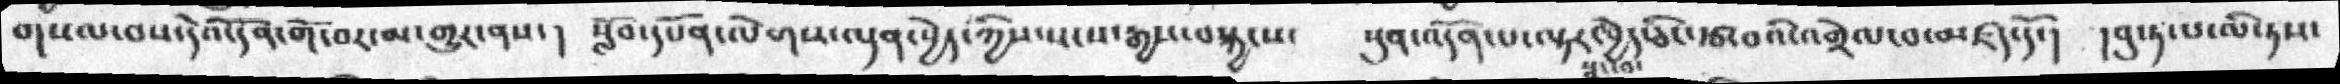གསལ་བས་དེའི་དོན་གོ་བར་མ་གྱུར་ནས་།  སློབ་དཔོན་ལེགས་ལྡན་བྱེད་ཀྱིས་སངས་རྒྱས་བསྐྱངས་  སུན་འདོན་པ་ལྟར་བྱེད་ཅིང་རྩ་བའི་འགྲེལ་བ་མཛད་དོ་།    །བུ་ཏ་པ་ལི་ཏས་
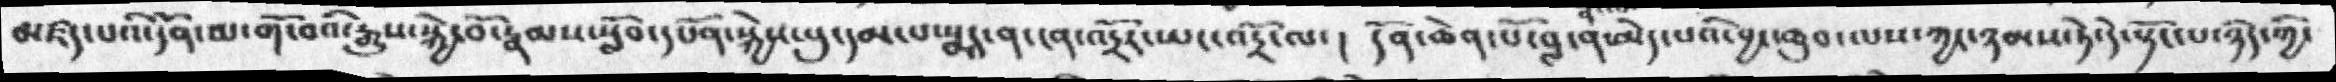མཛད་པའི་དོན་མ་གོ་བའི་རྒྱུས་སྐྱེ་བོ་རྣམས་སློབ་དཔོན་སྐྱེས་སུ་དམ་པ་སྨད་ན་ངན་འདྲོར་ཡང་འདྲོ་ལ་།  དོན་ཆེན་པོ་བླ་ན་མེད་པའི་བྱང་ཆུབ་ལས་ཀྱང་ཉམས་ཏེ་དེ་སྟོང་པ་ཉིད་ཀྱི་
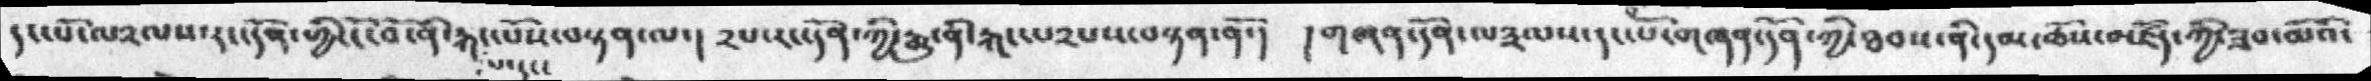དང་པོ་ལ༢ལས་རང་དོན་གྱི་ངོ་བོ་ནི་རྐང་པ་དང་པོས་བསྟན་ལ་།  ༢པ་རང་དོན་ཀྱི་རྒྱུ་ནི་རྐང་པ༢པས་བསྟན་ནོ་།  ། གཞན་དོན་ལ༣ལས་དང་པོ་གཞན་དོན་ཀྱི་ཐབས་ནི་དམ་ཆོས་མཛོད་ཀྱི་ཟབ་མོའི་
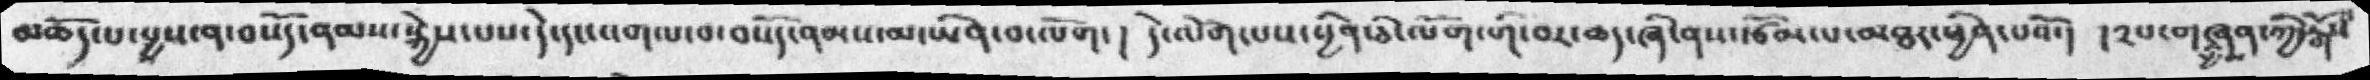མཆོས་པ་བྱས་ན་བསོད་ནམས་སྐྱེས་པས་དེ་དང་འགལ་བ་བསོད་ནམས་མ་ཡིན་པ་ལོག་།  དེ་ལོག་པས་ཕྱིན་ཅི་ལོག་གི་བར་ཆད་ཞི་ནས་རྩོམ་པ་མཐར་ཕྱིན་པའོ་།  །༢པ་གཞན་ཀྱི་རྒོས
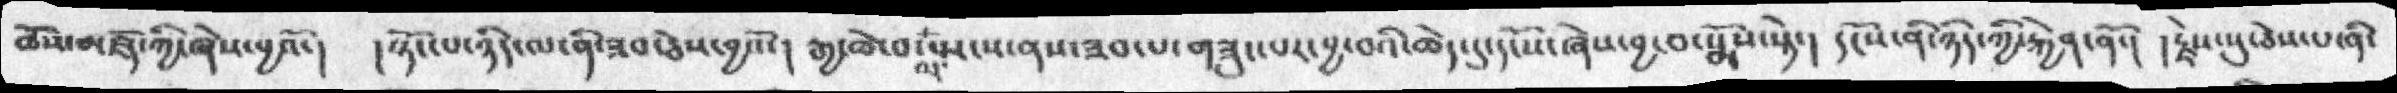ཆོས་མཛོད་ཀྱི་ཞེས་བྱའོ་།  ། སྟོང་པ་ཉིད་ལ་ནི་ཟབ་ཅེས་བྱའོ་།  རྒྱ་ཆེ་བ་ལ་སྤངས་ནས་ཟབ་པ་གཟུང་པར་བྱ་བའི་ཆེད་དུ་དངོས་ཞེས་བྱ་བ་སྨོས་སྟེ་།  དངོས་ནི་ཉིད་ཀྱི་རྐྱེན་ནོ་།  ། རྗེས་སུ་ཅེས་པ་ནི་
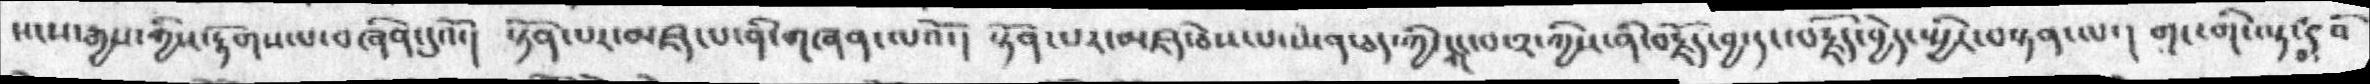སངས་རྒྱས་ཀྱིས་རྟོགས་པ་བཞིན་དུའོ་།   སྟོན་པར་མཛད་པ་ནི་གཞན་ལའོ་།  སྟོན་པར་མཛད་ཅེས་པ་ཡེན་ཅད་ཀྱི་གང་པ་༢་ཀྱིས་ནི་བརྗོད་བྱ་དང་བརྗོད་བྱེད་སྤྱིར་བསཏན་ལ་།  གང་གི་ལྟ་དབོ
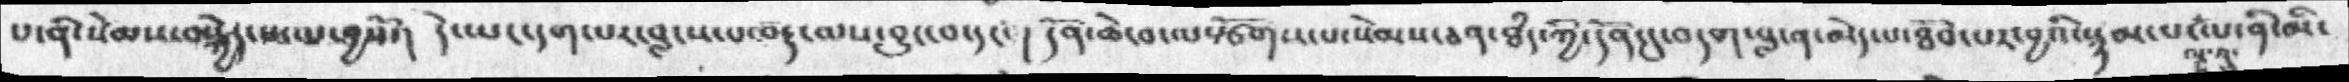པ་ནི་སེམས་བསྐྱེད་སྤ་པ་བྱསོ་།  དེ་ཡང་དག་པར་བླངས་པ་བརྡ་ལས་དབྱུང་བ་དང་།  དོན་ཆེ་བ་ལསྩོགས་པ་སེམས་ཅན་ཐཾད་ཀྱི་དོན་དུ་བདག་བླ་ན་མེད་པ་ཐོབ་པར་བྱའི་སྙམ་པ་ལ་ནི་མི་
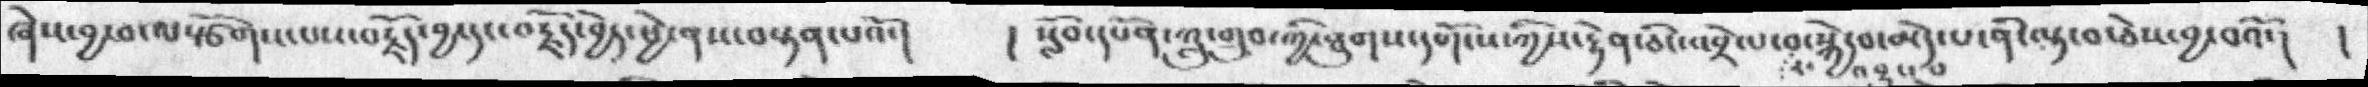ཞེས་བྱ་བ་ལསྩོགས་པས་བརྗོད་བྱ་དང་བརྗོད་བྱེད་ཕྱེ་ནས་བསྟན་པའོ་།  །  སློབ་དཔོན་ཀླུ་གྲུབ་ཀྱི་ཐུགས་དགོངས་ཀྱིས་རྟེན་ཅིང་འབྲེལ་བ་སྐྱེད་བ་མེད་པ་ནི་ལྟ་བ་ཅེས་བྱ་བའོ་།  །
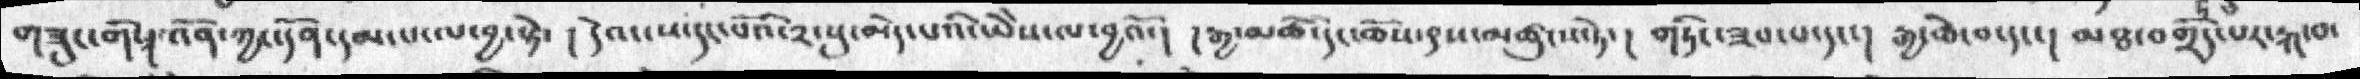གཟུང་གི།  འོན་ཀྱང་དོན་དམ་པ་ལ་བྱ་སྟེ་ །  དེའང་ས་དང་པོའི་༢་སུ་མེད་པའི་ཡེེས་ལ་བྱའོ་།  རྒྱ་མཚོ་དང་ཆོས་ནས་མཚུངས་ཏེ་།  གཏིང་ཟབ་པ་དང་།  རྒྱ་ཆེ་བདང་།  མཐ་བགྲོད་པར་རྐ་བ་
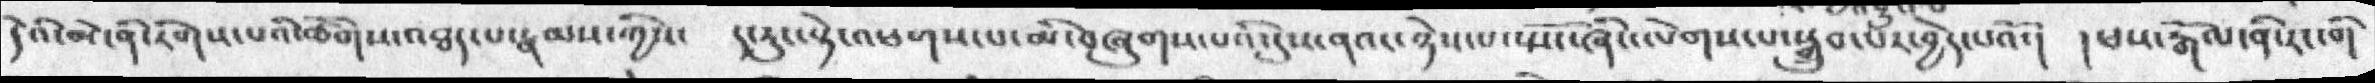དེའི་མེ་ནི་རིགས་པའི་ཚོགས་འཐད་པ་རྣམས་ཀྱིས་  ད་རུང་སྟེ་འཕགས་པ་མི་བཞུགས་པའི་དུས་ནའང་ཉེས་པ་སྤོང་ཞིང་ལེགས་པ་སྒྲུབ་པར་བྱེད་པའོ་ས྄   ། ཕས་རྒོལ་ནི་རང་གི
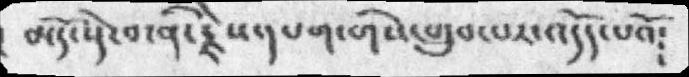མདོ་སྡེ་བ་ནི་རྗེས་དཔག་གིས་གྲུབ་པར་འདོད་པའོ༴
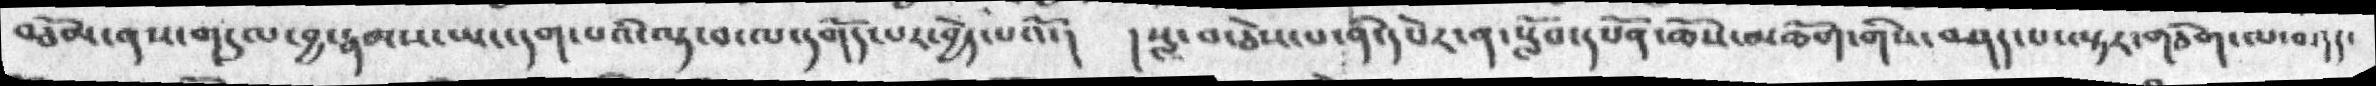བཅོམ་ནས་གདུལ་བྱ་རྣམས་ཡང་དག་པའི་ལྟ་བ་ལ་དགོད་པར་བྱེད་པའོ་།  །སླ་བ་ཅེས་པ་ནི་དཔེར་ན་སློབ་དཔོན་ཆོས་མཆོག་གིས་བཤད་པ་ལྟར་གཅིག་པ་བཤད་
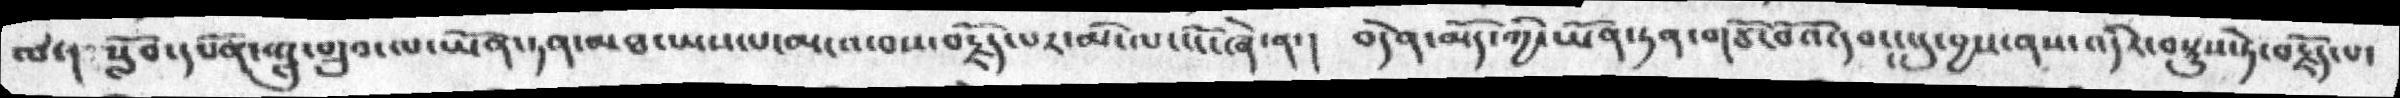ལ་།  སློབ་དཔོན་ཀླུ་གྲུབ་ལ་ཡོན་ཏན་མཐ་ཡས་པ་མངའ་བས་བརྗོད་པར་མི་ལངས་ཞེ་ན་།  བདེན་མོད་ཀྱི་ཡོན་ཏན་གཙོ་བོའི་དབང་དུ་བྱས་ནས་འདིར་བསྡུས་ཏེ་བརྗོད་པ་
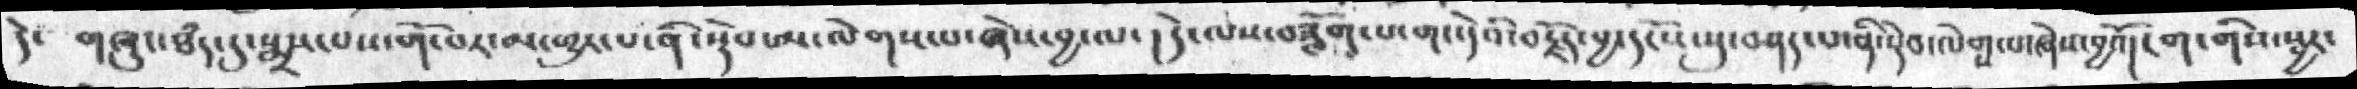དེ་  གཞུང་ཐཾད་དུ་སྨྲ་པས་གོ་པར་མ་ཕྱུར་པ་ནི་སྡེབ་མ་ལེགས་པ་ཞེས་བྱ་ལ་།  དེ་ལས་བཟློག་པ་གང་དེའི་བརྗོད་བྱ་དངོས་སུ་བཤད་པ་ནི་དེ་བ་ལེགས་པ་ཞེས་བྱའོ།  ངག་གིས་སྦྱར་
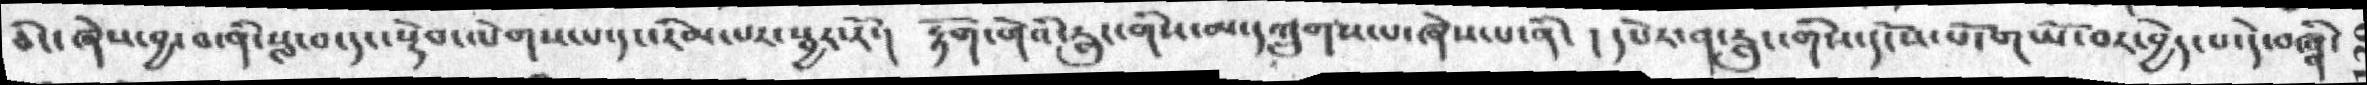ཅིང་ཞེས་་བྱ་བ་ནི་སླ་བ་དང་སྡེབ་ལེགས་པ་དང་རིམ་པར་སྦྱར་རོ་།  རྟོག་གེའི་རླུང་གིས་མ་དཀྲུགས་པ་ཞེས་པ་ནི།  ། དཔེར་ན་རླུང་གིས་དངོས་པོ་གཡོ་བར་བྱེད་པ་དེ་བཞིན
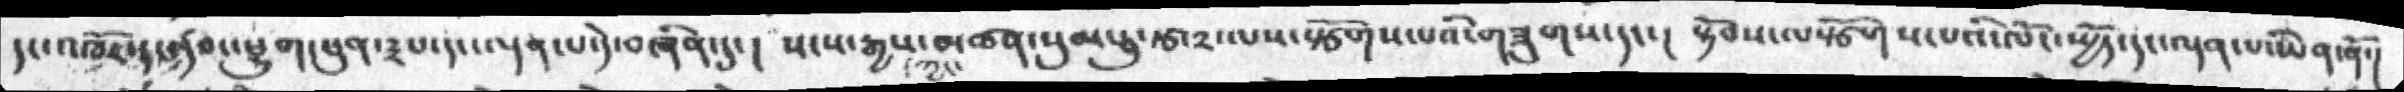དང་འཁོར་རྟ་དབང་ཕྱུག་ཕུན་༣པ་དང་ལྡན་པ་དེ་བཞིན་དུ་།    སངས་རྒྱས་ཀྱང་མཚན་སུམ་ཅུ་རྩ་༢་ལས་རྩོགས་པའི་གཟུགས་དང་།  སྟོབས་ལསྩོགས་པའི་ལོང་སྤྱོད་དང་ལྡན་པ་ཡིན་ནོ་།
